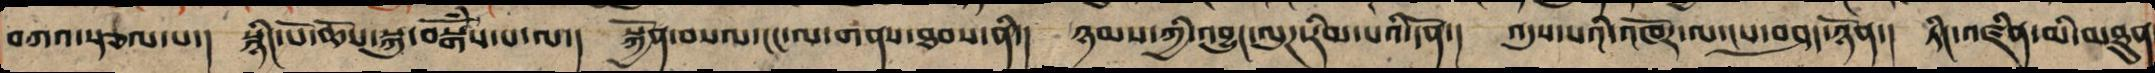བཀའ་སྩལ་པ་། སྙིང་པོ་ཆོས་སྐུ་བསྒོཾས་པ་ལ་། སྐྱོན་བསལ་ངང་ལ་གནས་ཐབས་ནི་། ཉམས་ཀྱི་འབྱུང་ལུཌ་རིམ་པའི་དོན་། འདུས་པའི་འཁོར་ལ་ངས་བཤད་ཉོན་། ཏིང་འཛིན་མི་མཐུན
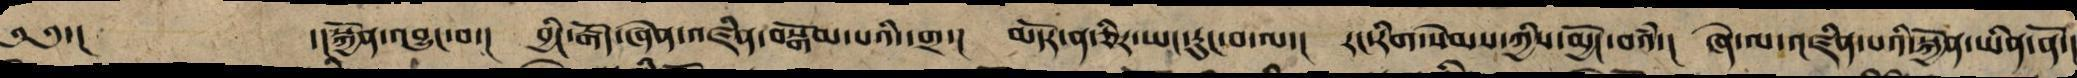༄༅་། སྐྱོན་འབྱུང་བ་། བྱིང་རྒོད་ཞེན་འཛིན་བསྒོམ་པའི་དགྲ་། མདོར་ན་ཅི་ཡང་རུང་བ་ལ་། རང་རིག་སེམས་ཀྱིས་མྱོང་བ་འཾ་། ཞེ་ལ་འཛིན་པའི་སྐྱོན་ཡིན་ནོ་།
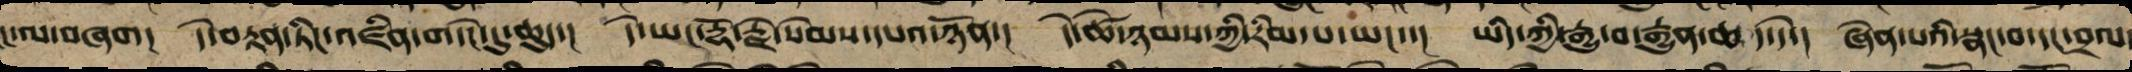ང་ལ་བཞག། དེ་བརྟན་ཏིང་འཛིན་གདེང་དུ་ཆུད་། དེ་ཡང་རྡོ་རྗེ་སེམས་དཔའ་ཉོན་། དེ་ཚེ་ཉམས་ཀྱི་རིམ་པ་ཡང་་། ཡིད་ཀྱི་རྒྱུ་བ་རྒྱུན་ཆད་དེ་། ཞེན་པའི་སྣང་བ་དང་བྲལ་
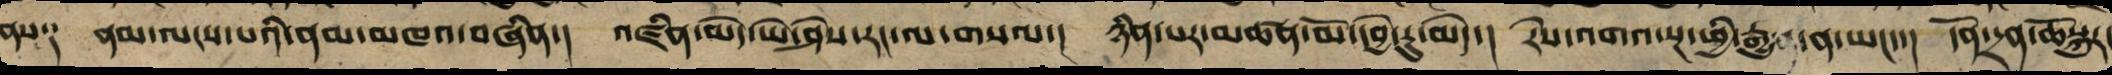ནས༑ ནམ་ལངས་པའི་ནམ་མཁའ་བཞིན་། འཛིན་མེད་ཡེ་ཤེས་རང་ལ་གསལ་། ཉིན་དང་མཚན་མོ་དབྱེ་རུ་མེད་། རེས་འགའ་སྔ་ཕྱིར་རྒྱུ་ན་ཡང་་། དོན་དྲན་ཆོསྐུར་
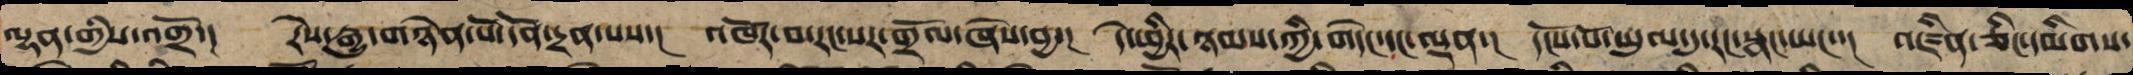ལྷན་གྱིས་འགྲོ་། རེས་རྒྱུ་གཉེན་པོའི་དོན་དྲན་པས་། འཁོར་བ་རང་སར་གྲོལ་ཞེས་བྱ་། དེ་ཕྱིར་ཉམས་ཀྱི་གདེང་དང་ལྡན་། དངོས་པོ་ཡུལ་དུ་རང་སྣང་ཡང་་། འཛིན་ཅིང་དམིགས་
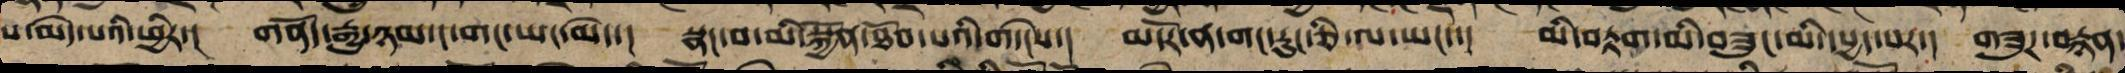པ་མེད་པའི་ཕྱིར་། གནོད་རྒྱུ་ཉམ་ང་གང་ཡང་མེད་། སྣང་བ་མི་སྐྱོན་ཐོབ་པའི་གདེང་། མདོར་ན་གང་རུང་ཅི་ལ་ཡང་་། མི་བརྟག་མི་གཟུང་མི་དཔྱད་པར་། གཟུཌ་བརྙན་
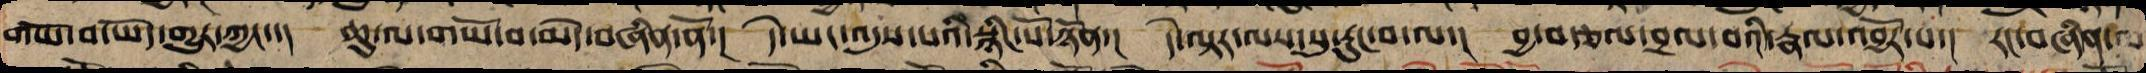གཡོ་བ་ཡོད་གྱུར་ཀྱང་་། ཆུ་ལ་གཡོ་བ་མེད་བཞིན་ནོ་། དེ་ཡང་འདུས་པའི་སྙིང་པོ་ཉོན་། དེ་ལྟར་ལས་སུ་རུང་བ་ལ་། བྱ་བརྩལ་བྲལ་བའི་རྣལ་འབྱོར་པ་། རང་བཞིན་ལ
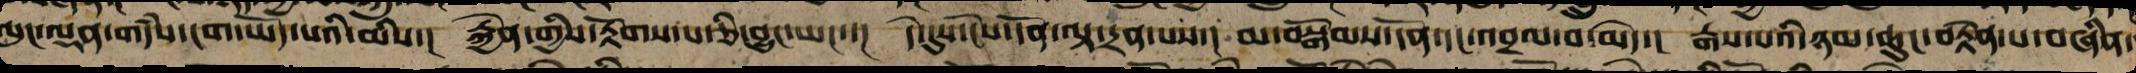ལུང་ལྡན་གདཾས་ངག་ཡོད་པའི་མིས་། རྐྱེན་གྱི་རྟོགས་པ་ཅི་བྱུང་ཡང་་། དེ་དུས་ངེས་དོན་ལྟ་དྲན་པས་། མ་བསྒོམས་དོན་དང་འབྲལ་བ་མེད་། རྒས་པའི་ཉམ་ཆུང་བརྟེན་པ་བཞིན་
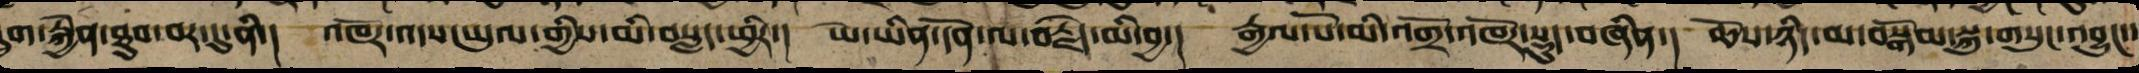དྲུག་རྐྱེན་ཐུབ་བར་དུ་ནི་། འཁོར་འདས་ཡུལ་གྱིས་མི་བསླད་ཕྱིར་། ཡེ་ཡིན་དོན་ལ་བརྗེད་མི་བྱ་། རྒྱལ་པོ་མི་འགྲོ་འཁོར་སྡུད་བཞིན་། ཆོས་ཉིད་མ་བསྒོམས་སྐུ་གསུམ་འབྱུང་།
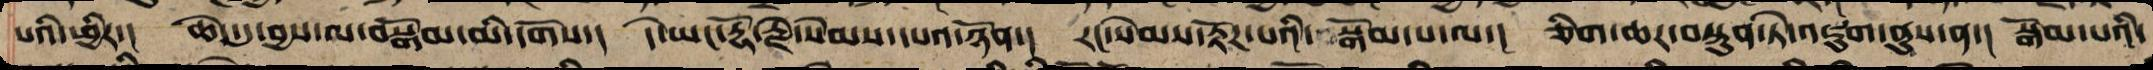པའི་ཕྱིར་། ཆེད་དུ་བྱས་ལ་བསྒོམ་མི་དགོས་། དེ་ཡང་རྡོ་རྗེ་སེམས་དཔའ་ཉོན་། རང་སེམས་རྟོཌ་པའི་བསྒོམས་པ་ལ་། གཅིག་ཆར་བསྟུན་ཏེ་འཇུག་ནུས་ན་། སྒོམ་པའི་
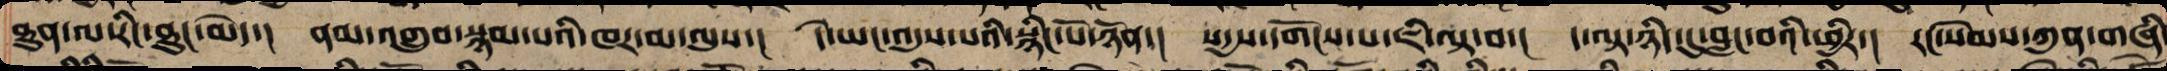ཐུན་ལ་རིང་ཐུང་མེད་། ནམ་འགྲུབ་སྙམ་པའི་ཁར་མ་ལུས་། དེ་ཡང་འདུས་པའི་སྙིང་པོ་ཉོན་། སདྱས་དགོངས་པ་ཇི་ལྟ་བ་། ད་ལྟ་ཉིད་དུ་བླང་བའི་ཕྱིར་། རང་སེམས་ཀུན་གཞི
